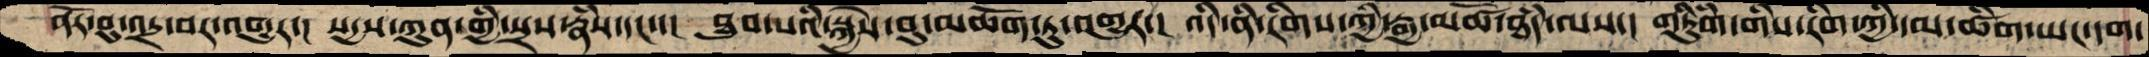ནོར་བུ་འདྲ་བར་འགྱུར་།  སདྱས་ཀུན་གྱི་སྲས་རྣཾས་དང་་།  ཐུབ་པའི་སྐྱེས་བུ་མཆོག་ཏུ་འགྱུར་།  འདི་ནི་ཪིགས་ཀྱི་རྒྱ་མཚོ་ཐཾད་ལས་།  གཏིུཾག་གིས་རིག་ཀྱི་དམ་ཚིག་ཡང་དག་
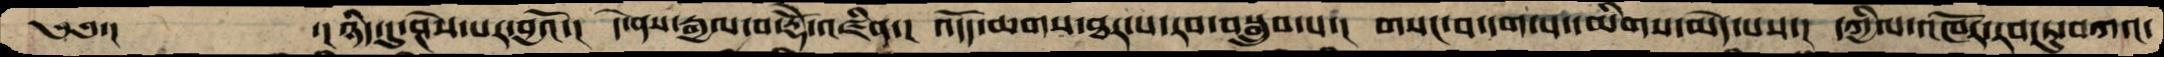༄༅་།      ་།ཉིད་དུ་ཤེས་པར་བྱའོ་།  དེ་ནས་རྒྱལ་བ་རྡོེ་འཛིན་།  འདོད་ཆགས་ཐར་པ་རབ་བསྒྲུབ་པ་།  གསང་བ་དག་པ་དམིགས་མེད་པས་།  དཀྱིལ་འཁོར་རབ་ཏུ་བཀའ་
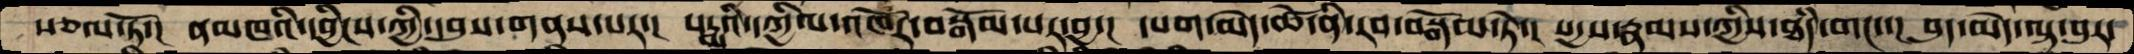སྩལ་ཏོ་།  ནམཁའི་དབྱིངས་ཀྱི་དབུས་གནས་པར་།  པདྨའི་དཀྱིལ་འཁོར་བསྒོམ་པར་བྱ་།  དཔག་མེད་ཚེ་ནི་རབ་བསྒོམ་ཏེ་།  སདྱས་རྣམས་ཀྱིས་ཐཾད་གང་་།  བུད་མེད་ལྟ་བུར་
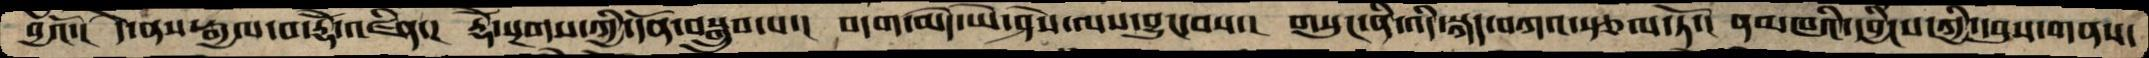བྱའོ་།  དེ་ནས་རྒྱལ་བ་རྡོེ་འཛིན་།  རྡོེ་སྔགས་ཀྱི་དོན་བསྒྲུབ་པ་།  བདག་མེད་ཡེ་ཤེས་ལས་བྱུང་བས་།  གསུང་ནི་འདི་སྐད་བཀའ་སྩལ་ཏོ་།  ནམཁའི་དབྱིངས་ཀྱི་དབུས་གནས་
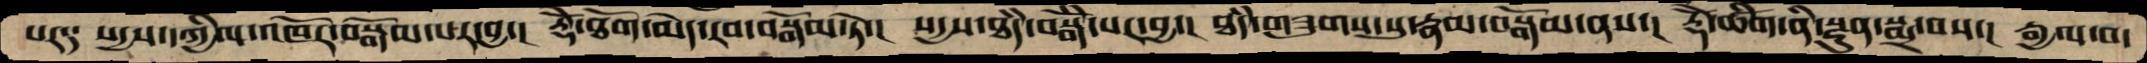པར༑  སདྱས་དཀྱིལ་འཁོར་བསྒོམ་པར་བྱ་།  རྡོེ་ཐོག་མེད་རབ་བསྒོམ་ཏེ་།  སདྱས་ཐཾད་བསྒོཾ་པར་བྱ་།  ཐཾད་གཟུགས་སུ་རྣམ་བསྒོམ་ནས་།   རྡོེ་ཚིག་ནི་སྫུན་སྨྲ་བས་།  རྒྱལ་བ་
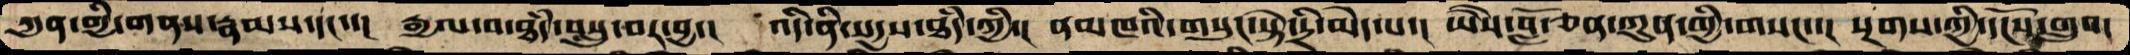ཀུན་གྱི་གནས་རྣམས་དང་་།  རྒྱལ་བ་ཐཾད་བསླུ་བར་བྱ་།  འདི་ནི་སདྱས་ཐཾད་ཀྱི་།  ནམཁའི་གསུང་སྟེ་དྲི་མེད་པ་།  ཡཻས་བློ་ཅན་ཀུན་གྱི་གསང་་།  སྔགས་ཀྱི་དངོས་གྲུབ་
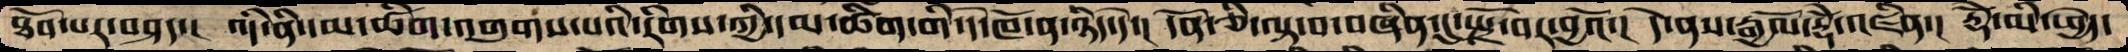ཐོབ་པར་བཤད་།  འདི་ནི་དམ་ཚིག་འགུགས་པའི་རིགས་ཀྱི་དམ་ཚིག་གི་དེ་ཁོ་ན་ཉིད་དེ་།   དོན་ཅི་ལྟ་བ་བཞིན་དུ་སྤྲོ་བར་བྱའོ་།  དེ་ནས་རྒྱལོ་རྡོེ་འཛིན་།  རྡོེ་མི་ཕྱེད་
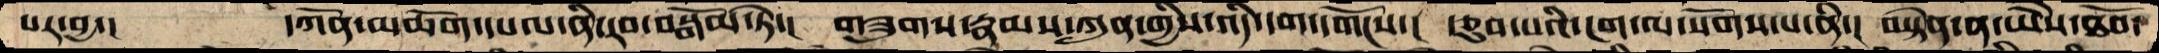པར་བྱ་།   དཀོན་མཆོག་དཔལ་ནི་རབ་བསྒོམ་ཏེ་།  གཟུགས་རྣམས་ཀུན་གྱིས་འདི་དག་དགོངས་།  རྩུབ་པའི་ངག་ལ་སོགས་པ་ནི་།  བསྟེན་ན་ཡཻས་ཐོབ་
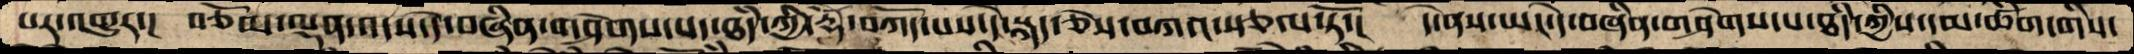པར་འགྱུར་།  བཅོམ་ལྡན་འདས་དེ་བཞིན་གཤེགས་པ་ཐཾད་ཀྱི་རྡོེ་བཀོད་པས་དེ་སྐད་ཅེས་བཀའ་སྩལ་ཏོ་།  དེ་ནས་ཡང་དེ་བཞིན་གཤེགས་པ་ཐཾད་ཀྱིས་དམ་ཚིག་གིས་
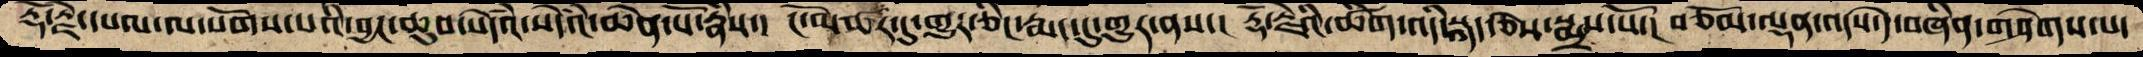རྡོ་རྗེ་དཔལ་ལ་སོགས་པའི་བྱང་ཆུབ་སེདཾའ་སེདཾའ་ཆེན་པོ་རྣཾས་།  ངོ་མཚར་དུ་གྱུར་ཅིང་རྨད་དུ་གྱུར་ནས་།  རྡོ་རྗེའི་ཚིག་འདི་སྐད་ཅེས་སྨྲས་སོ་།  བཅོམ་ལྡན་འདས་དེ་བཞིན་གཤེགས་པ་
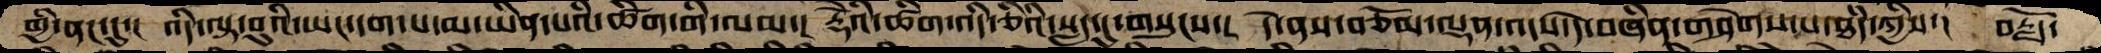གྱི་ནང་དུ་།  འདི་ལྟ་བུའི་ཡང་དག་པ་མ་ཡིན་པའི་ཚིག་གི་ལམ་།  རྡོེའི་ཚིག་འདི་ཅིའི་སླད་དུ་གསུངས་།  དེ་ནས་བཅོམ་ལྡན་འདས་དེ་བཞིན་གཤེགས་པ་ཐཾད་ཀྱིས་།  བརྗོད་
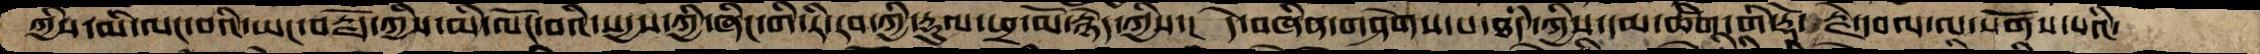ཀྱིས་མི་ལང་པའི་ཡང་བརྗོད་ཀྱིས་མི་ལོང་བའི་སདྱས་ཀྱི་ཞིང་གི་རི་རབ་ཀྱི་རྡུལ་ཕྲ་མོ་རྙེད་ཀྱིས་།  དེ་བཞིན་གཤེགས་པ་ཐཾད་ཀྱིས་དམ་ཚིག་གི་རྡོ་རྗེ་དཔལ་ལ་སོགས་པའི་
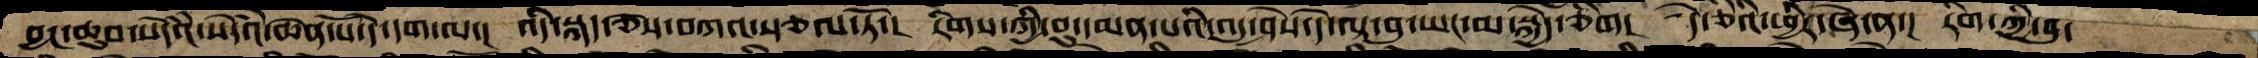བྱང་ཆུབ་སེདཾའ་སེདཾའ་ཆེན་པོ་དེ་དག་ལ་།  འདི་སྐད་ཅེས་བཀའ་སྩལ་ཏོ་།  རིགས་ཀྱི་བུ་དམན་པའི་འདུ་ཤེས་དེ་ལྟ་བུ་ཡང་མ་སྐྱེད་ཅིག།  དེ་ཅིའི་ཕྱིར་ཞེ་ན་།  རིག་ཀྱི་བུ་
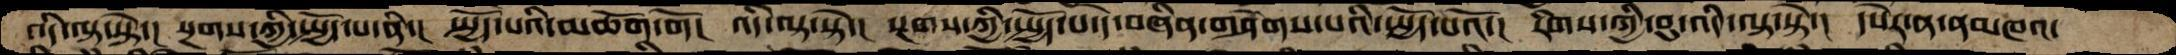འདི་ལྟ་སྟེ་།  སྔགས་ཀྱི་སྤྱོད་པ་ནི་།  སྤྱོད་པའི་མཆོག་གོ།  འདི་ལྟ་སྟེ་།  སྔགས་ཀྱི་སྤྱོད་པ་དེ་བཞིན་གཤེགས་པའི་སྤྱོད་པའོ་།  རིགས་ཀྱི་བུ་འདི་ལྟ་སྟེ་།  དཔེར་ན་ནམཁའ་
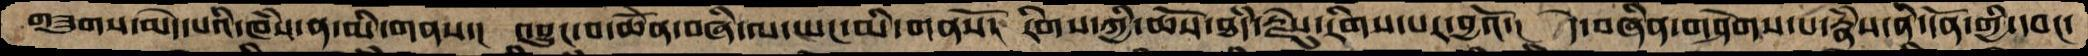གཟུགས་མེད་པའི་ཁཾས་ན་མི་གནས་།  འབྱུང་བ་ཆེནོ་བཞི་ལ་ཡང་མིགནསོ་།  རིགས་ཀྱི་ཆོས་ཐཾད་རྗེསུ་རིགས་པར་བྱའོ་།  དེ་བཞིན་གཤེགས་པ་རྣཾས་ནི་དོན་གྱི་དབང་
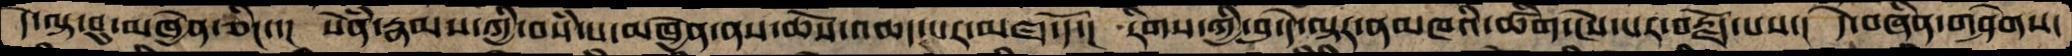དེ་ལྟ་བུ་མཁྱེན་ཅིང་་།  སེཾན་རྣམས་ཀྱི་བསཾ་པ་མཁྱེན་ནས་ཆོས་འཆད་པར་མཛད་དོ་།  རིགས་ཀྱི་བུ་དེ་ལྟར་ནམཁའི་ཚིག་ངེས་པར་བརྗོད་པས་།  དེ་བཞིན་གཤེགས་
